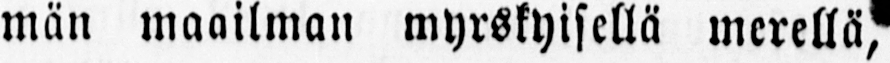män maailman myrskyisellä merellä,
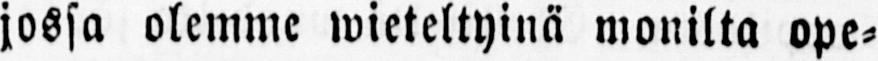jossa olemme wieteltyinä monilta ope-
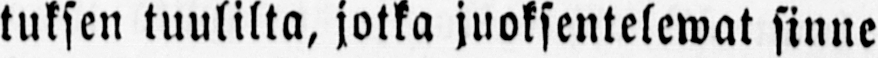tuksen tuulilta, jotka juoksentelewat sinne
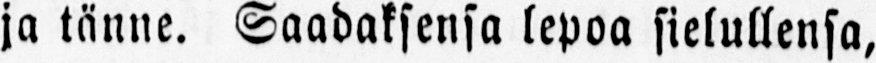ja tänne. Saaduksensa lepoa sielullensa,
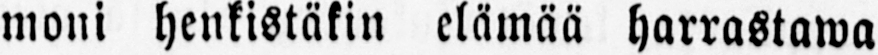moni henkistäkin elämää harrastawa
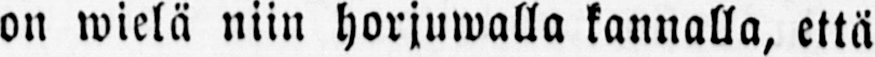on wielä niin horjuwalla kannalla, että
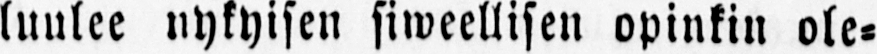luulee nykyisen siweellisen opinkin ole-
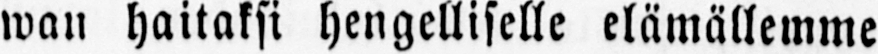wan haitaksi hengelliselle elämällemme
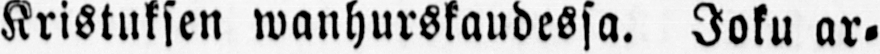Kristuksen wanhurskaudessa. Joku ar-
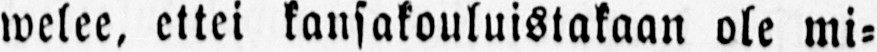welee, ettei kansakouluistakaan ole mi-
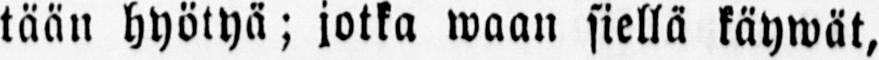tään hyötyä; jotka waan siellä käywät,
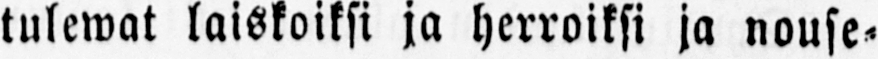tulewat laiskoiksi ja herroiksi ja nouse-
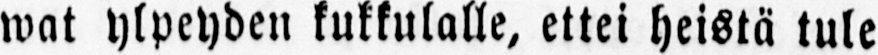wat ylpeyden kukkulalle, ettei heistä tule
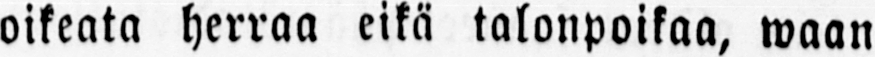oikeata herraa eikä talonpoikaa, waan
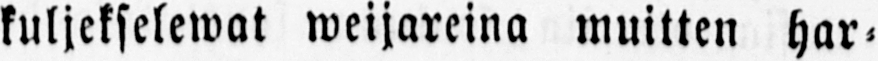kuljekselewat weijareina muitten har-
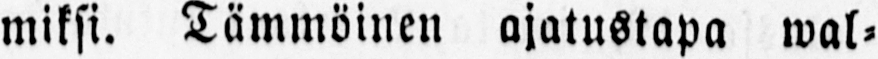miksi. Tämmöinen ajatustapa wal-
